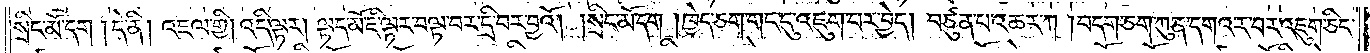སྲིང་མོ་དག །དེ་ནི། འཇལ་གྱི། འདི་ལྟར། ལྟད་མོ་ཇི་ལྟར་བལྟ་བར་དྲི་བར་བྱའོ། །སྲིང་མོ་དག །ཁྱེད་ཅག་གང་དུ་འཇུག་པར་བྱེད། བཙུན་པ་འཆར་ཀ །བདག་ཅག་ཀུན་དགའ་ར་བར་འཇུག་ཅིང་
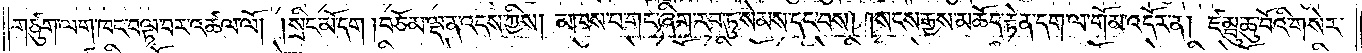གཙུག་ལག་ཁང་བལྟ་བར་འཚལ་ལོ། །སྲིང་མོ་དག །བཅོམ་ལྡན་འདས་ཀྱིས། མཁས་པ་གང་ཞིག་རབ་ཏུ་སེམས་དང་བས། །སངས་རྒྱས་མཆོད་རྟེན་དག་ལ་གོམ་འདོར་ན། ཛམྦུ་ཆུ་བོའི་གསེར་
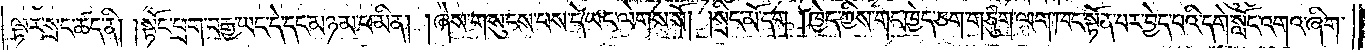ལྟར་སྲང་ཚད་ནི། །སྟོང་ཕྲག་བརྒྱ་ཡང་དེ་དང་མཉམ་པ་མིན། །ཞེས་གསུངས་པས་དེ་ཡང་ལེགས་སོ། །སྲིང་མོ་དག །ཁྱེད་ཀྱིས་གང་ཁྱེད་ཅག་གཙུག་ལག་ཁང་སྟོན་པར་བྱེད་པའི་དགེ་སློང་འགའ་ཞིག་
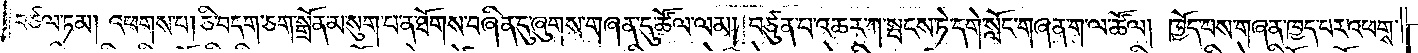བཙལ་ཏམ། འཕགས་པ། ཅི་བདག་ཅག་སྒྲོན་མ་སུག་པ་ན་ཐོགས་བཞིན་དུ་ཞུགས་གཞན་དུ་ཚོལ་ལམ། བཙུན་པ་འཆར་ཀ་སྤངས་ཏེ་དགེ་སློང་གཞན་ག་ལ་ཚོལ། ཁྱོད་པས་གཞན་ཁྱད་པར་འཕགས་
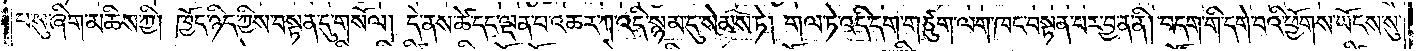པ་སུ་ཞིག་མཆིས་ཀྱི། ཁྱོད་ཉིད་ཀྱིས་བསྟན་དུ་གསོལ། དེ་ནས་ཚེ་དང་ལྡན་པ་འཆར་ཀ་འདི་སྙམ་དུ་སེམས་ཏེ། གལ་ཏེ་འདི་དག་གཙུག་ལག་ཁང་བསྟན་པར་བྱ་ན་ནི། བདག་གི་དགེ་བའི་ཕྱོགས་ཡོངས་སུ་
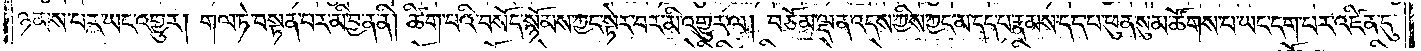ཉམས་པར་ཡང་འགྱུར། གལ་ཏེ་བསྟན་པར་མི་བྱ་ན་ནི། ཚིག་པའི་བསོད་སྙོམས་ཀྱང་སྟེར་བར་མི་འགྱུར་ལ། བཅོམ་ལྡན་འདས་ཀྱིས་ཀྱང་མ་དད་པ་རྣམས་དད་པ་ཕུན་སུམ་ཚོགས་པ་ཡང་དག་པར་འཛིན་དུ་
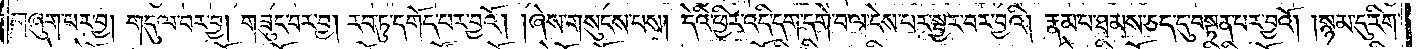གཞུག་པར་བྱ། གདུལ་བར་བྱ། གཟུང་བར་བྱ། རབ་ཏུ་དགོད་པར་བྱའོ། །ཞེས་གསུངས་པས། དེའི་ཕྱིར་འདི་དག་དགེ་བ་ལ་ངེས་པར་སྦྱར་བར་བྱའི། །རྣམ་པ་ཐམས་ཅད་དུ་བསྟན་པར་བྱའོ། །སྙམ་དུ་རིག་
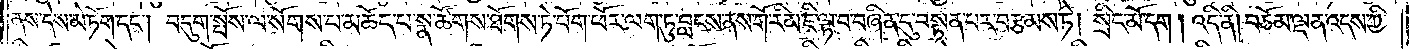ནས་དེས་མེ་ཏོག་དང༌། བདུག་སྤོས་ལ་སོགས་པ་མཆོད་པ་སྣ་ཚོགས་ཐོགས་ཏེ་པོག་ཕོར་ལག་ཏུ་བླངས་ནས་གོ་རིམ་ཇི་ལྟ་བ་བཞིན་དུ་བསྟན་པར་བརྩམས་ཏེ། སྲིང་མོ་དག །འདི་ནི། བཅོམ་ལྡན་འདས་ཀྱི་
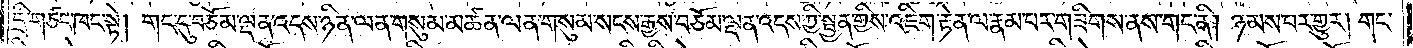དྲི་གཙང་ཁང་སྟེ། གང་དུ་བཅོམ་ལྡན་འདས་ཉིན་ལན་གསུམ་མཚན་ལན་གསུམ་སངས་རྒྱས་བཅོམ་ལྡན་འདས་ཀྱི་སྤྱན་གྱིས་འཇིག་རྟེན་ལ་རྣམ་པར་གཟིགས་ནས་གང་ནི། ཉམས་པར་གྱུར། གང་
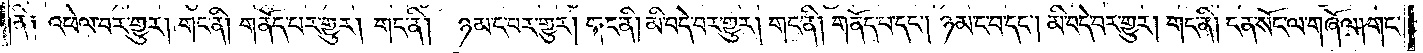ནི། འཕེལ་བར་གྱུར། གང་ནི། གནོད་པར་གྱུར། གང་ནི། ཉམ་ང་པར་གྱུར། གང་ནི། མི་བདེ་བར་གྱུར། གང་ནི། གནོད་པ་དང༌། ཉམ་ང་བ་དང༌། མི་བདེ་བར་གྱུར། གང་ནི། ངན་སོང་ལ་གཞོལ། གང་
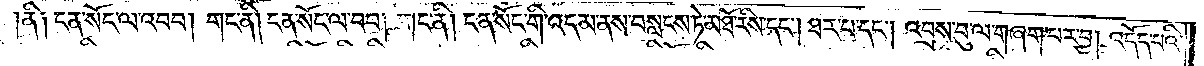ནི༑ ངན་སོང་ལ་འབབ། གང་ནི། ངན་སོང་ལ་བབ། གང་ནི། ངན་སོང་གི་འདམ་ནས་བསླངས་ཏེ་མཐོ་རིས་དང༌། ཐར་པ་དང༌། འབྲས་བུ་ལ་གཞག་པར་བྱ། འདོད་པའི་
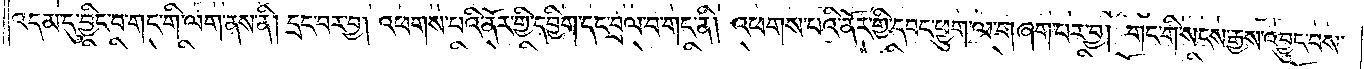འདམ་དུ་བྱིང་བ་གང་གི་ལག་ནས་ནི། དྲང་བར་བྱ། འཕགས་པའི་ནོར་གྱི་དབྱིག་དང་བྲལ་བ་གང་ནི། འཕགས་པའི་ནོར་གྱི་དབང་ཕྱུག་ལ་གཞག་པར་བྱ། གང་གི་སངས་རྒྱས་འབྱུང་བས་
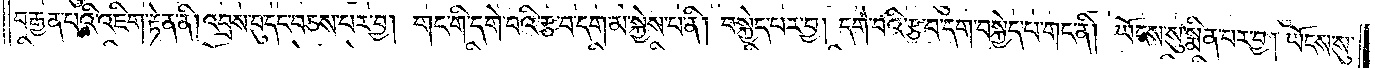བརྒྱན་པའི་འཇིག་རྟེན་ནི། འབྲས་བུ་དང་བཅས་པར་བྱ། གང་གི་དགེ་བའི་རྩ་བ་དག་མ་སྐྱེས་པ་ནི། བསྐྱེད་པར་བྱ། དགེ་བའི་རྩ་བ་དག་བསྐྱེད་པ་གང་ནི། ཡོངས་སུ་སྨིན་པར་བྱ། ཡོངས་སུ་
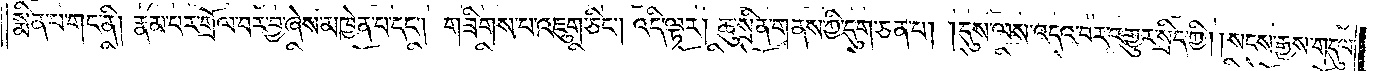སྨིན་པ་གང་ནི། རྣམ་པར་གྲོལ་བར་བྱ་ཞེས་མཁྱེན་པ་དང༌། གཟིགས་པ་འཇུག་ཅིང༌། འདི་ལྟར། ཆུ་སྲིན་གནས་ཀྱི་དུག་ཅན་པ། །དུས་ལས་འདའ་བར་འགྱུར་སྲིད་ཀྱི། །སངས་རྒྱས་གདུལ་
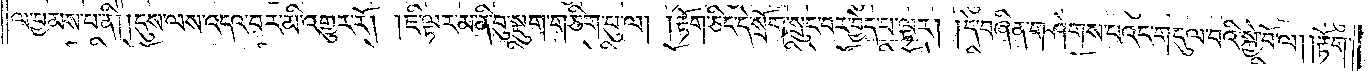ལ་བྱམས་པ་ནི། །དུས་ལས་འདའ་བར་མི་འགྱུར་རོ། །ཇི་ལྟར་མ་ནི་བུ་སྡུག་གཅིག་པུ་ལ། །རྟོག་ཅིང་དེ་སྲོག་སྲུང་བར་བྱེད་པ་ལྟར། །དེ་བཞིན་གཤེགས་པའང་གདུལ་བའི་སྐྱེ་བོ་ལ། །རྟོག་
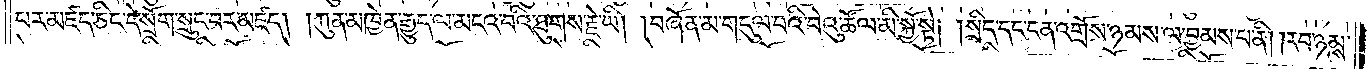པར་མཛད་ཅིང་དེ་སྲོག་སྲུང་བར་མཛད། །ཀུན་མཁྱེན་རྒྱུད་ལ་མངའ་བའི་ཐུགས་རྗེ་ཡི། །བཞོན་མ་གདུལ་བའི་བེའུ་ཚོལ་མི་སྐྱོ་སྟེ། །སྲིད་དང་ངན་འགྲོས་ཉམས་ལ་བྱམས་པ་ནི། །རབ་ཉམས་
